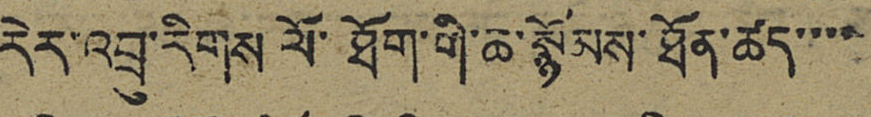རེར་འབྲུ་རིགས ལོ་ཐོག་གི་ཆ་སྙོམས་ཐོན་ཚད་་་་
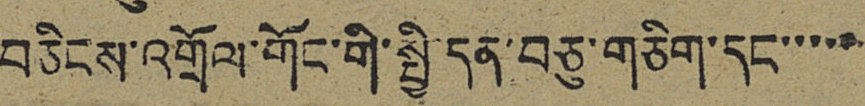བཅིངས་འགྲོལ་གོང་གི་སྤྱི་དན་བཅུ་གཅིག་དང་་་་་
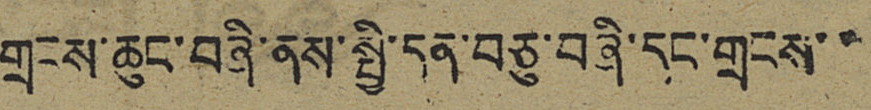གྲངས་ཆུང་བཞི་ནས་སྤྱི་དན་བཅུ་བཞི་དང་གྲངས་་
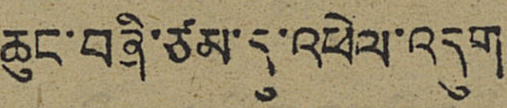ཆུང་བཞི་ཙམ་དུ་འཕེལ་འདུག
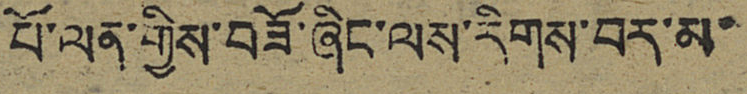པོ་ལན་གྱིས་བཟོ་ཞིང་ལས་རིགས་བར་མ་
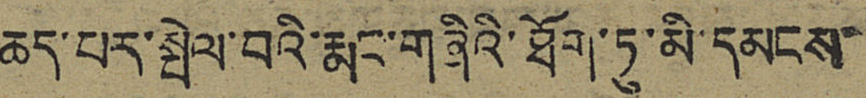ཆད་པར་སྤེལ་བའི་རྨང་གཞིའི་ཐོག་ཏུ་མི་དམངས་
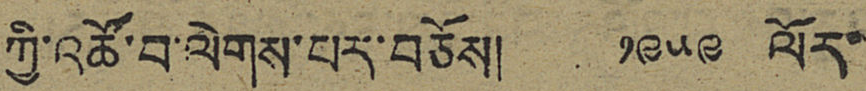ཀྱི་འཚོ་བ་ལེགས་པར་བཅོས། ༡༩༥༩ ལོར་
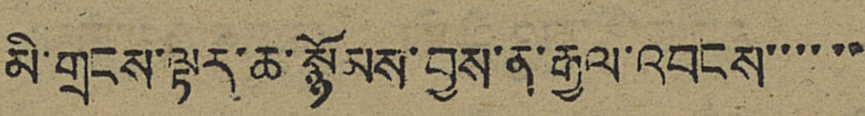མི་གྲངས་ལྟར་ཆ་སྙོམས་བྱས་ན་རྒྱ་འབངས་་་་་་
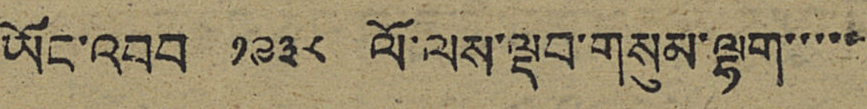ཡོང་འབབ ༡༩༣༨ ལོ་ལས་ལྡབ་གསུམ་ལྷག་་་་་
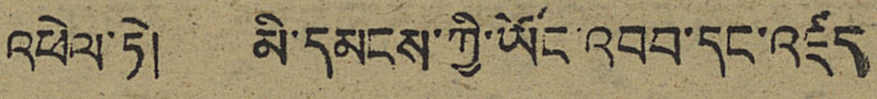འཕེལ་ཏེ། མི་དམངས་ཀྱི་ཡོང་འབབ་དང་འཛད
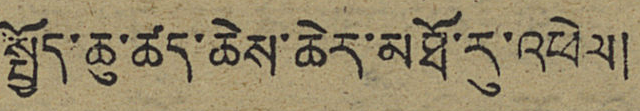སྤྱོད་ཆུ་ཚད་ཆེས་ཆེར་མཐོ་རུ་འཕེལ།
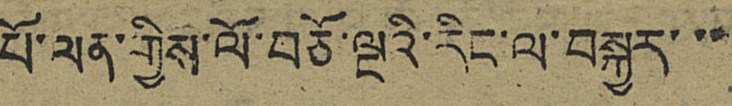པོ་ལན་གྱིས་ལོ་བཅོ་ལྔའི་རིང་ལ་བསྐྱར་་་
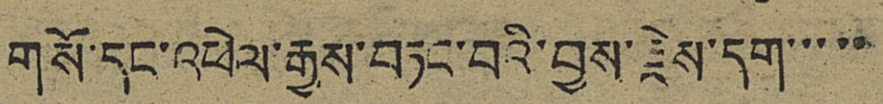གསོ་དང་འཕེལ་རྒྱས་བཏང་བའི་བྱས་རྗེས་དག་་་་་
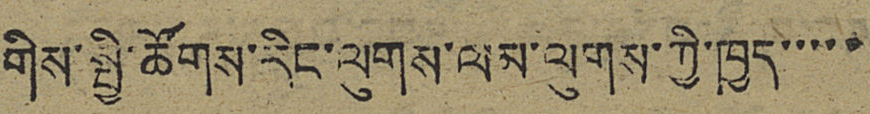གིས་སྤྱི་ཚོགས་རིང་ལུགས་ལམ་ལུགས་ཀྱི་ཁྱད་་་་་
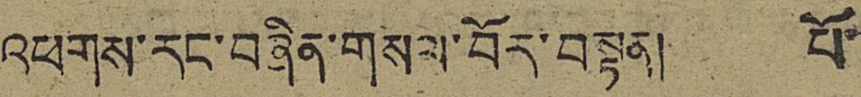འཕགས་རང་བཞིན་གསལ་བོར་བསྟན། པོ་
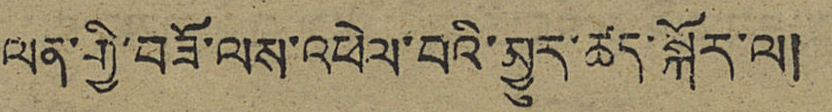ལན་གྱི་བཟོ་ལས་འཕེལ་བའི་མྱུར་ཚད་སྐོར་ལ།
